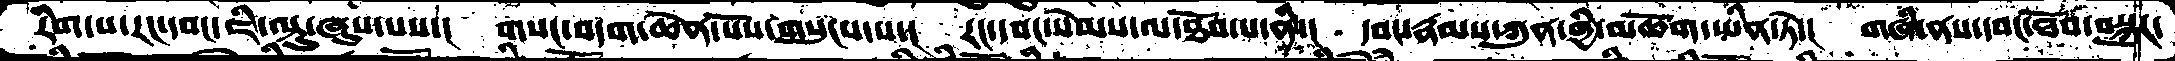རིག་པ་རང་དབང་ཇི་ལྟུ་ཞུས་པས་།  གསང་བདག་ཆེན་པོས་གསུངས་པ་།  རང་དབང་སེམས་ལ་ཐོབ་པ་ནི་།  དབང་རྣམས་ཀུན་གྱི་མཆོག་ཡིན་ཏེ་།  གཞི་ནས་དབང་ཐོབ་བསྐུར་
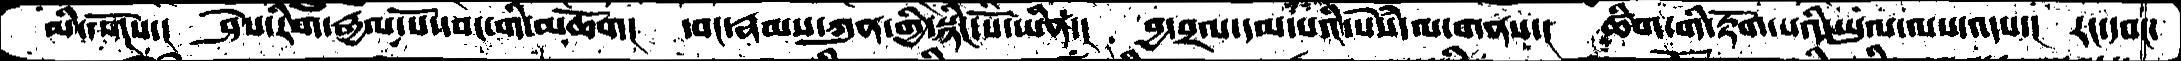མི་དགོས་།  ཤེས་རིག་རྒྱལ་པོ་དབང་གི་མཆོག།  དབང་རྣམས་ཀུན་གྱི་སྙིང་པོ་ཡིན་།  བྱ་བྲལ་དམ་པའི་སེཾས་ལ་གནས་།  ཚིག་གི་རྟོག་པའི་ཡུལ་ལས་འདས་།  རང་དབང་
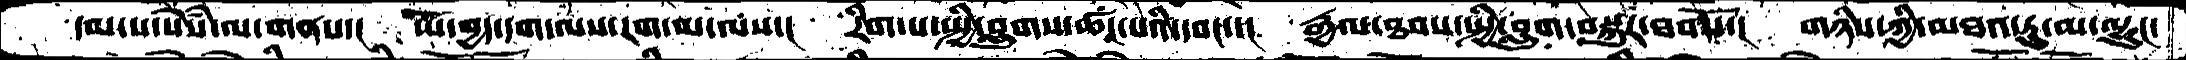དམ་པ་སེཾས་ལ་གནས་།  ཡོ་བྱད་དག་ལས་རག་མ་ལས་།  རིག་པ་སྤྱི་བླུགས་ཚང་པའི་དབང་་།  རྒྱལ་ཐབས་སྤྱི་བླུག་བསྐུར་ཐབསོ་།  གཉིས་ཀྱི་མཐའ་རུ་མ་ལྷུང་
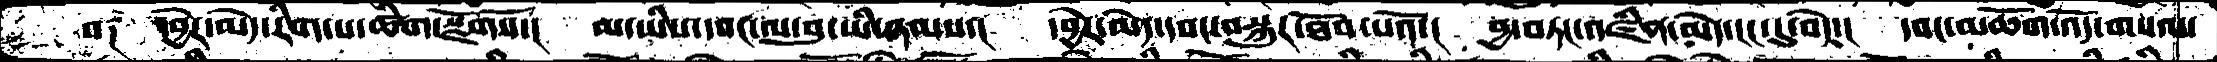བ༑  དབྱེར་མེད་རིག་པ་ཚིག་སྫོགསོ་།  མ་ཡིས་དབང་ལ་བུ་ཡི་ཉམས་།  དབྱེར་མེད་དབང་བསྐུར་ཐོབ་པའོ་།  བྱ་བཏང་འཛིན་མེད་ངང་དུ་བདེ་།  དབང་མཆོག་འོད་གསལ་
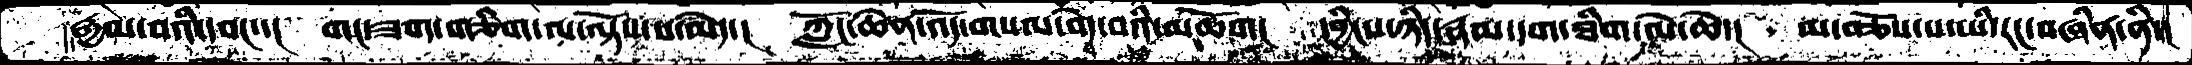རྒྱལ་བའི་དབང་་།  གང་ཟག་གཅིག་ལ་ལྟོས་པ་མེད་།  ཀློང་ཆེན་འོད་གསལ་བདེ་བའི་མཆོག།  དབྱིངས་ཉིད་རྣམ་དག་ཐིག་ལེ་ཆེ་།  མ་བཅོས་པ་ཡི་རང་བཞིན་ནི་།
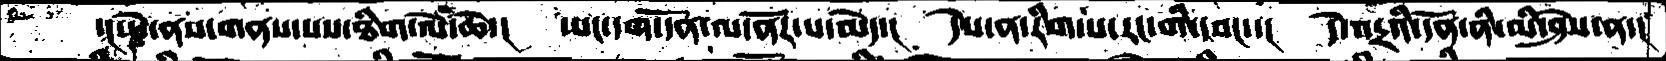་།ཡེ་ནས་གནས་པས་ཐིག་ལེ་ཆེ་།  ཡང་དག་དོན་ལ་ནོར་པ་མེད་།   དེས་ན་རིག་པ་རང་གི་དབང་་།  དེ་འདྲའི་དོན་ནི་མི་ཤེས་ན་།
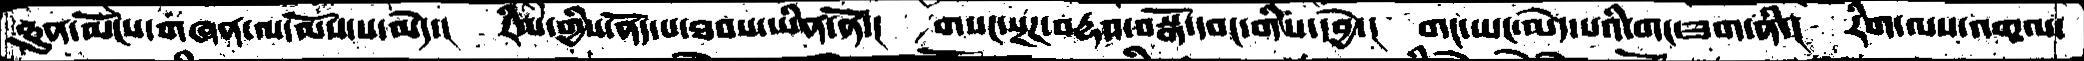ཐུན་མོངས་གཞན་ལ་མོས་པ་མེད་།  རིམ་གྱིས་ནོད་པ་ཐབས་ཡིན་ནོ་།  གསང་སྔཌ་བརྡའ་བསྒོ་དབང་གིས་དབྱེ་།  གང་ཡང་མེད་པའི་གང་ཟག་ནི་།  རིག་ལས་འགལ་
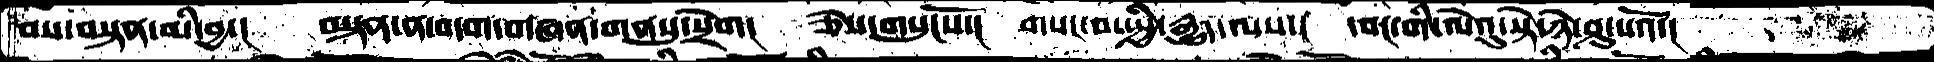བས་བསྟན་མི་བྱ་།  བསྟན་ན་བདག་གཞན་གནསུ་སྲེག།  ཅེས་གསུངསོ་།  གསང་བ་སྤྱི་རྒྱུད་ལས་།  དབང་གི་ལེའུ་སྟེ་ཉེ་ཤུ་པའོ་།
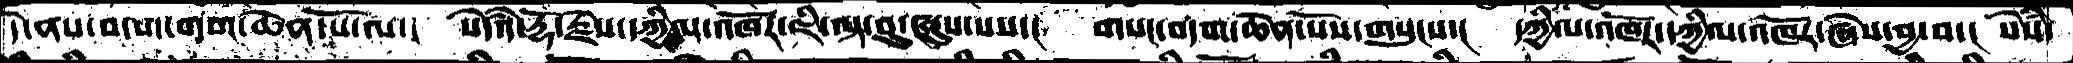དེ་ནས་བདག་གག་ཆེན་པོ་ལ་།  སེདཾའ་རྡོ་རྗེས་དཀྱིལ་འཁོར་ཇི་ལྟ་བུ་ཞུས་པས་།  གསང་བདག་ཆེན་པོས་གསུངས་།  དཀྱིལ་འཁོར་དཀྱིལ་འཁོར་ཞེས་བྱ་བ་།  སེཾས་
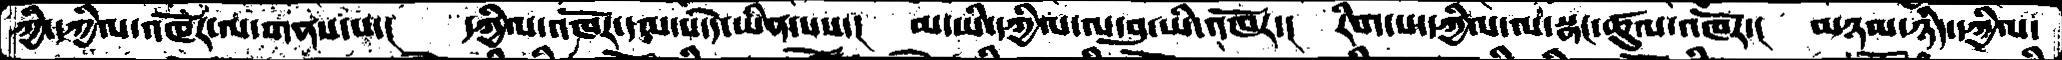ཀྱི་དཀྱིལ་འཁོར་ལ་གནས་པ་།  དཀྱིལ་འཁོར་དམ་པ་དེ་ཡིན་པས་།  མ་ཡི་དཀྱིལ་ལ་བུ་ཡི་འཁོར་།  རིག་པ་དཀྱིལ་ལ་སྣང་ཚུལ་འཁོར་།  མཉམ་ཉིད་དཀྱིལ་
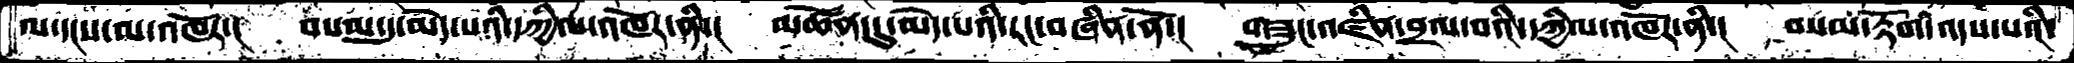ལ་དངས་མ་འཁོར་།  བསམ་དུ་མེད་པའི་དཀྱིལ་འཁོར་ནི་།  མཚོན་དུ་མེད་པའི་རང་བཞིན་ནོ་།  གཟུང་འཛིན་བྲལ་བའི་དཀྱིལ་འཁོར་ནི་།  བསམ་རྟོག་འདས་པའི་
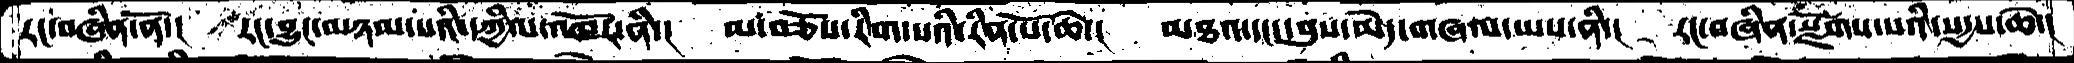རང་བཞིན་ནོ་།  རང་བྱུང་མཉམ་པའི་དཀྱིལ་འཁོར་ནི་།  མ་བཅོས་རིག་པའི་རིན་པོ་ཆེ་།  མཐའ་དང་དབུས་མེད་གཞལ་ཡས་ནི་།  རང་བཞིན་སྫོགས་པའི་སདྱས་ཆེ་།
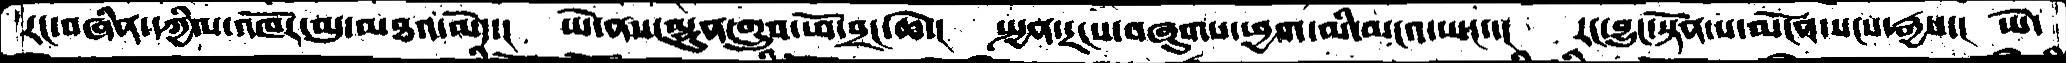རང་བཞིན་དཀྱིལ་འཁོར་མུ་མཐའ་མེད་།   ཡེ་ནས་ལྷུན་གྲུབ་ཕོ་བྲང་ཆེ་།  སྤྱན་དྲངས་བཞུགས་ཕྱག་མི་མངའ་ཡང་་།  རང་བྱུང་སྟོན་པ་མངོན་སངས་རྒྱས་།  ཡེ་
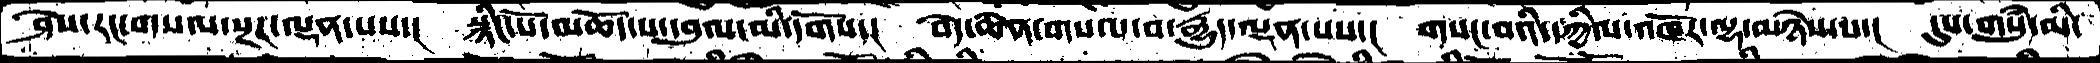ཤེས་རང་གསལ་སྔཌ་ལྡན་པས་།  སྙིང་པོ་མཆོད་པ་དབུལ་མི་དགོས་།  བདེ་ཆེན་གསལ་བ་རྒྱུད་ལྡན་པས་།  གསང་བའི་དཀྱིལ་འཁོར་ལྷ་མཉེས་པ་།  དུས་གསུཾ་མི་
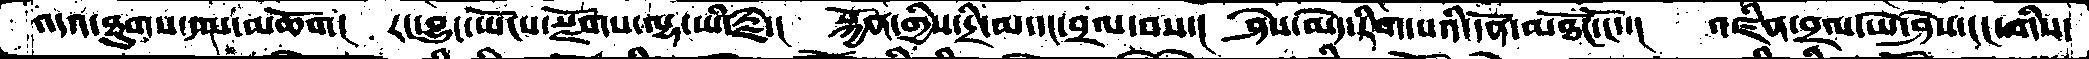འདའ་ཐུགས་དམ་མཆོག།   རང་བྱུང་ཡོངས་སྫོགས་ལྷ་ཡི་རྗེ་།  སྐྱོན་གྱིས་དྲི་མ་དང་བྲལ་བས་།  ཤེས་མེད་རིག་པའི་དོན་མཐོང་ངོ་་།  འཛིན་བྲལ་ཡེ་ཤེས་ངང་གིས་
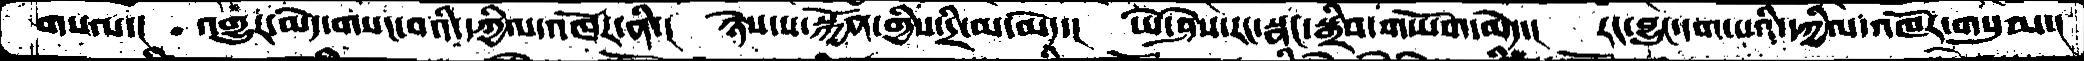གསལ་།   འགྱུར་མེད་གསང་བའི་དཀྱིལ་འཁོར་ནི་།   ཉེས་པ་སྐྱོན་གྱིས་དྲི་མ་མེད་།  ཡེ་ཤེས་རང་སྣང་སྒྲིབ་གཡོག་མེད་།  རང་བྱུང་དག་པའི་དཀྱིལ་འཁོར་གསུམ་།
